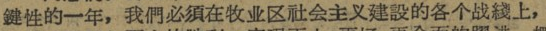鍵性的一年，我們必須在牧业区社会主义建設的各个战綫上，
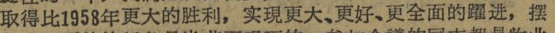取得比1958年更大的胜利，实現更大、更好、更全面的躍进，摆
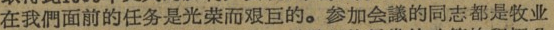在我們面前的任务是光荣而艰巨的。参加会議的同志都是牧业
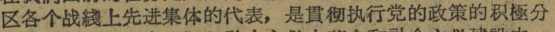区各个战綫上先进集体的代表，是貫彻执行党的政策的积極分
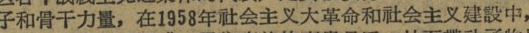子和骨干力量，在1958年社会主义大革命和社会主义建設中，
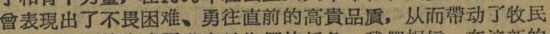曾表現出了不畏困难、勇往直前的高貴品貭，从而带动了牧民
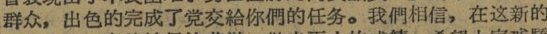群众，出色的完成了党交給你們的任务。我們相信，在这新的
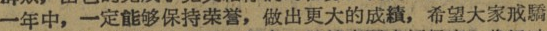一年中，一定能够保持荣誉，做出更大的成績，希望大家戒驕
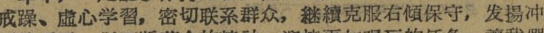戒躁、虚心学習，密切联系群众，継續克服右傾保守，发揚冲
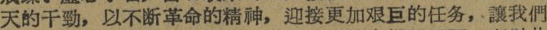天的干勁，以不断革命的精神，迎接更加艰巨的任务，让我們
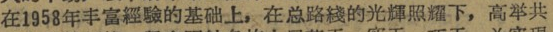在1958年丰富經驗的基础上，在总路綫的光辉照耀下，高举共
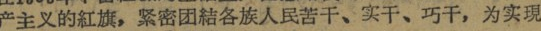产主义的紅旗，紧密团結各族人民苦干、实干、巧干，为实現
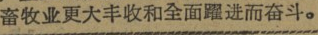畜牧业更大丰收和全面躍进而奋斗。
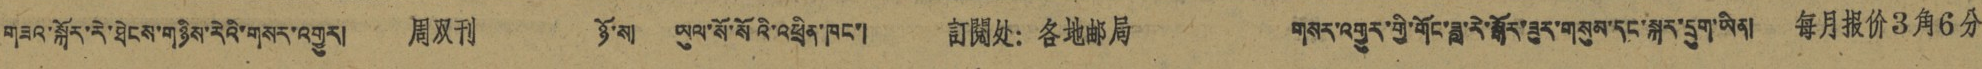གཟའ་སྐོར་རེ་ཐེངས་གཉིས་རེའི་གསར་འགྱུར། 周双刊 ཉོ་ས། ཡུལ་སོ་སོའི་འཕྲིན་ཁང་། 訂閱处：各地邮局 གསར་འགྱུར་གྱི་གོང་ཟླ་རེ་སྒོར་ཟུར་གསུམ་དང་སྐར་དྲུག་ཡིན། 每月报价3角6分
